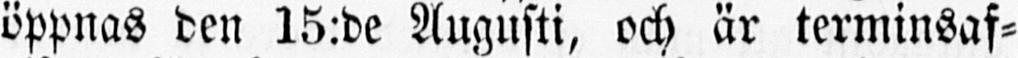öppnas den 15:de Augusti, och är terminsaf-
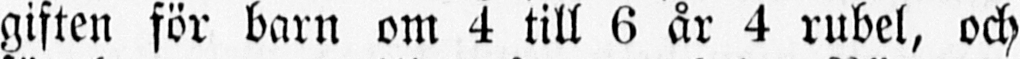giften för barn om 4 till 6 år 4 rubel, och
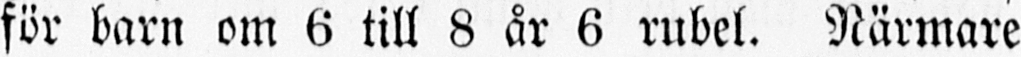för barn om 6 till 8 år 6 rubel. Närmare
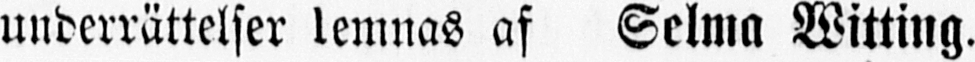underrättelser lemnas af Selma Witting.
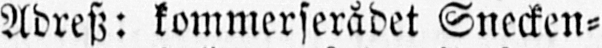Adresz: kommerserådet Snecken-
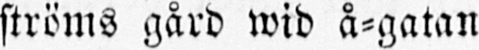ströms gård wid å-gatan
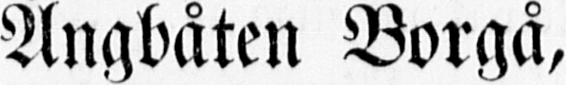Ångbåten Borgå,
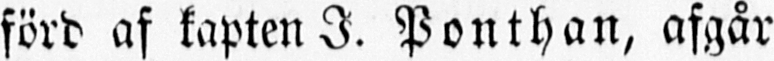förd af kapten I. Ponthan, afgår
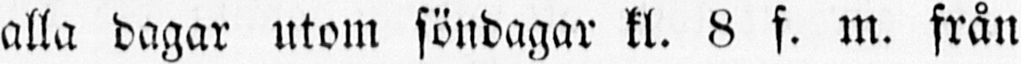alla dagar utom söndagar kl. 8 f. m. från
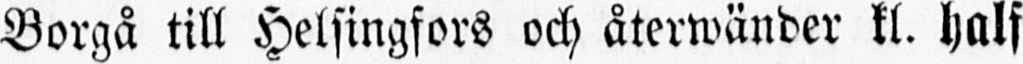Borgå till Helsingfors och återwänder kl. half
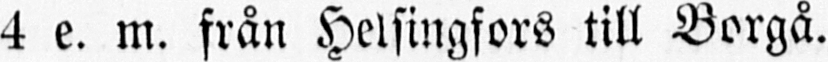4 e. m. från Helsingfors till Borgå.
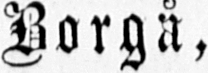Borgå,
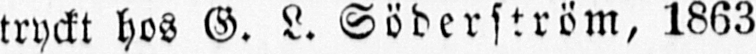tryckt hos G. L. Söderström, 1863
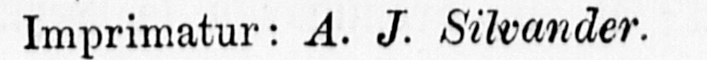Imprimatur: A. J. Silvander.
